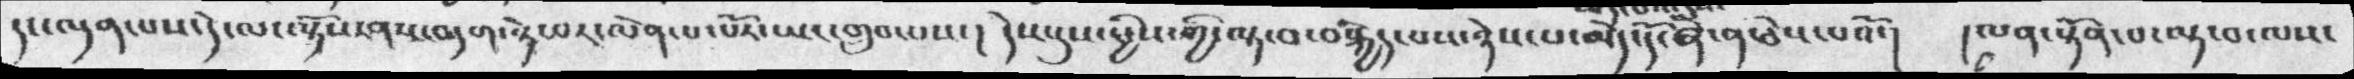དང་ལྡན་པས་དེ་ལ་ལྟོས་ནས་བདག་ཉེ་བར་ལེན་པ་པོར་ཡང་གྲུབ་པས་།  དེས་དུས་ཕྱིས་གྱི་ལྟ་བ་བསྐྱེད་པས་ཉེས་པ་མེད་དོ་ཞེ་ན་ཅེས་པའོ་།  །ལན་སྟོན་པ་ལྟ་བ་ལས་
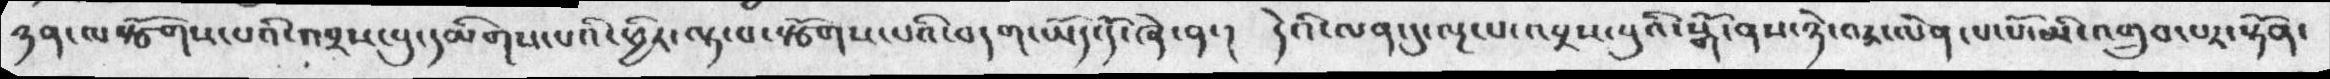ཉན་ལསྩོགས་པི་འབྲས་བུ་དམིགས་པའི་ཕྱིར་ལྟ་བ་སྩོགས་པའི་བདག་ཡོད་དོ་ཞེ་ན་། དེའི་ལན་དུ་ལྔ་པ་འབྲས་བུའི་སྒོ་ནས་ཉེ་བར་ལེན་པ་པོ་མི་འགྲུབ་པར་སྟོན་
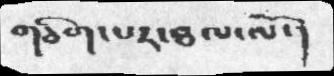གཅིག་པར་ཐལ་ལོ་།
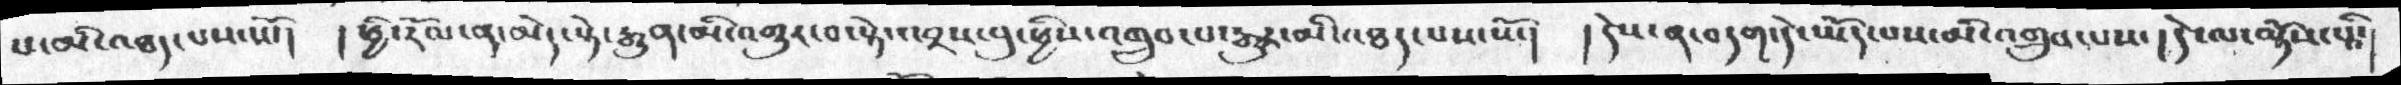པ་མི་འཐད་པས་སོ་།   །ཕྱི་རོལ་ན་མེད་སྟེ་རྒྱུན་མི་འགྱུར་བ་སྟེ་འབྲས་བུ་ཕྱིས་འགྲུབ་པ་རྒྱུར་མ་འཐད་པས་སོ་།  །དེས་ན་བདག་དེ་ཡོད་པས་མི་འགྲུབ་པས་།  དེ་ལ་ལྟོས་པའི་
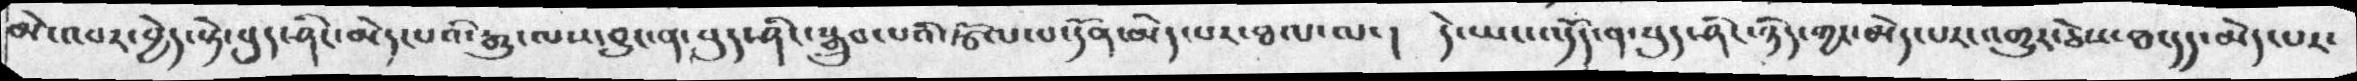མེ་འབར་བྱེད་སྟེ་བུད་ཤིང་མེད་པའི་རྒྱུ་ལས་བྱུང་ན་བུད་ཤིང་སྒྲུབ་པའི་རྩོལ་པ་དོན་མེད་པར་ཐལ་ལ་།  དེ་ཡང་འདོད་ན་བུད་ཤིང་ཉིད་ཀྱང་མེད་པར་འགྱུར་ཅེས་ཐ་དད་མེད་པར་
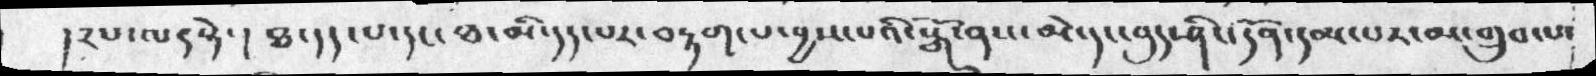།༢པ་ལདསྟེ་། ཐ་དད་པ་དང་ཐ་མི་དད་པར་བརྟག་པ་བྱས་པའི་སྒོ་ནས་མེ་དང་བུད་ཤིང་དོན་དམ་པར་མ་གྲུབ་པ་
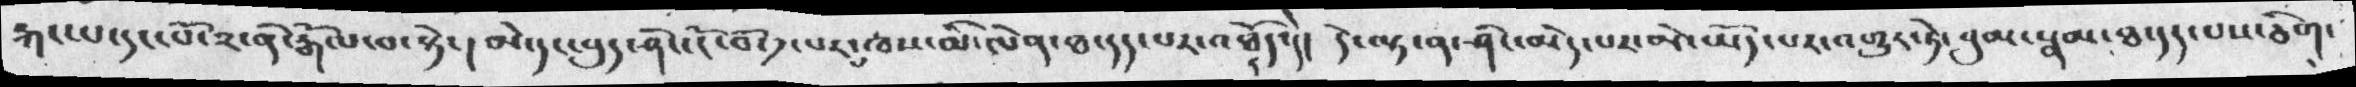རྐང་པ་དང་པོ་༢་ནི་རྒོལ་བ་སྟེ་།  མེ་དང་བུད་ཤིང་ངོ་བོ་༡་པར་པ་ཁས་མི་ལེན་ཐ་དད་པར་འདོད་དེ་།  དེ་ལྟ་ན་ཤིང་མེད་པར་མེ་ཡོད་པར་འགྱུར་ཏེ་བུམ་སྣམ་ཐ་དད་པས་ཅིག་
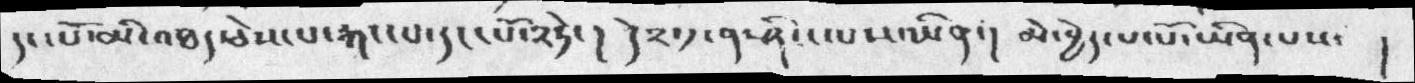དང་པོ་མི་འཐད་ཅེས་པ་རྐང་པ་དང་པོ་༢ཏེ་།  དེ༢་༡་ན་ཤིང་ལས་ཡིན་། མེ་བྱེད་པ་པོ་ཡིན་པས་ །
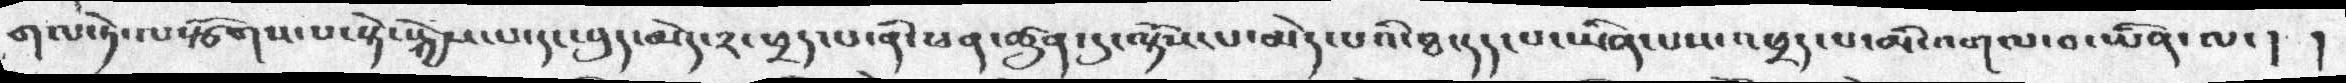གལ་ཏེ་ལསྩོགས་པ་སྟེ་སྐྱེས་པ་དང་བུད་མེད་༢་ཕྲད་པ་ནི་ཕན་ཚུན་དུ་ལྟོས་པ་མེད་པའི་ཐ་དད་པ་ཡིན་པས་འཕྲད་པ་མི་འགལ་བ་ཡིན་ལ་། །
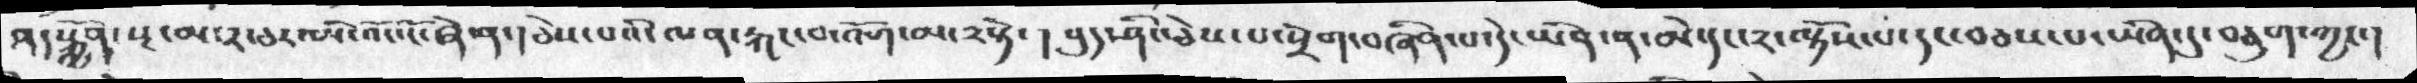ཤད་སྐྱོན་སྔ་མ་༢་ཅར་ཨེ་འོང་ངོ་ཞེ་ན་། ཅེས་པའི་ལན་རྐང་བ་འོག་མ་༢སྟེ་།   བུད་ཤིང་ཅེས་པ་སྲོག་བཞིན་པ་དེ་ཡིན་ན་མེ་དང་༢་ལྟོས་པ་དང་བཅས་པ་ཡིན་དུ་བཅུག་ཀྱང་།
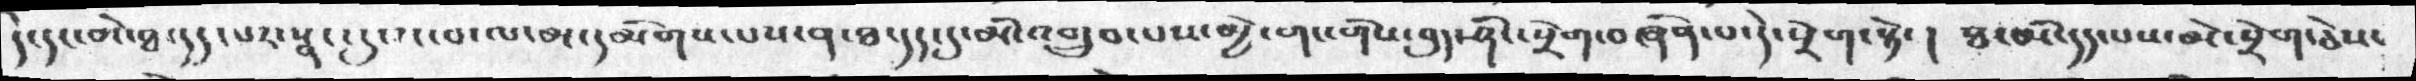དེ་དང་མེ་ཐ་དད་པར་སྣང་དུས་བ་ལ་མ་དམིགས་པས་ན་ཐ་དད་དུ་མི་འགྲུབ་པས་མྱེ་གང་གིས་བུད་ཤིང་སྲེག་བཞིན་པ་དེ་སྲེག་སྟེ་།  ཐ་མི་དད་པས་མེ་སྲེག་ཅེས་
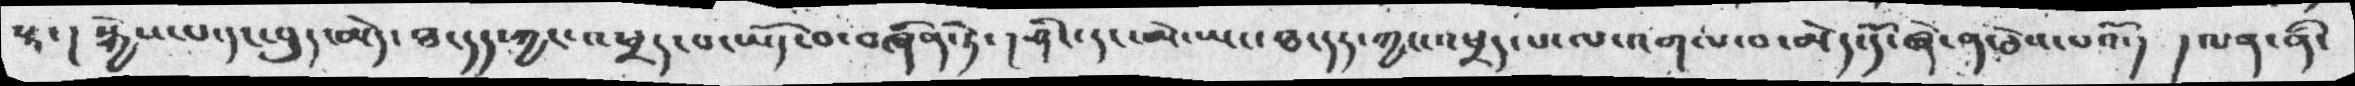པའ་།  སྐྱེས་པ་དང་བུད་མེད་ཐ་དད་ཀྱང་འཕྲད་པ་ཡོད་བ་བཞིན་ཏེ་།  ཤིང་དང་མེ་ཡང་ཐད་དད་ཀྱང་འཕྲད་པ་ལ་འགལ་བ་མེད་དོ་ཞེ་ན་ཅེས་པའོ་།  །ལན་ནི་
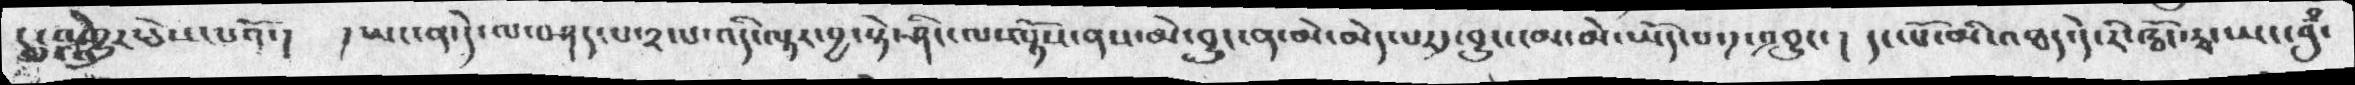དུ་འགྱུར་ཅེས་པའོ་།  ། ཡང་ན་དེ་ལ་བཤད་པ་༢་པ་འདི་ལྟར་བྱ་སྟེ་ཤིང་ལ་ལྟོས་ནས་མེ་བྱུང་ན་མེ་མེད་པར༡་བྱུང་ངམ་མེ་ཡོད་པ་༡་འབྱུང་།  དང་པོ་མི་འཐད་དེ་རི་ཝོང་རྭ་ཡང་བུཾ་
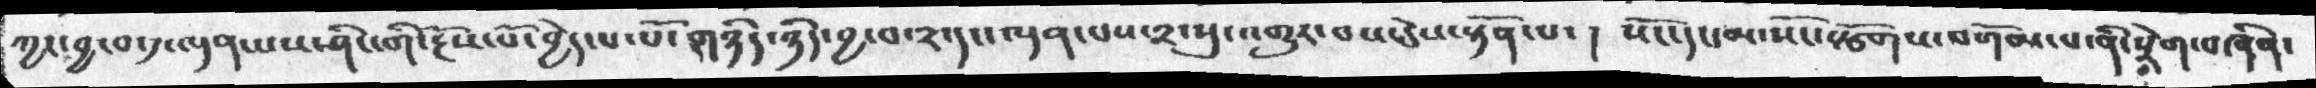ཀྱང་བྱ་བ་༡་ལྡན་པས་ཤིང་གི་རྔོས་པོ་བྱེད་པ་པོ་གཉིད་ཉིད་བྱ་བ་༢་དང་ལྡན་པས་༢་སུ་འགྱུར་བས་ཅེས་སྟོན་པ་།  སོང་དང་མ་སོང་སྩོགས་བགོམ་པ་ནི་སྲེག་བཞིན་
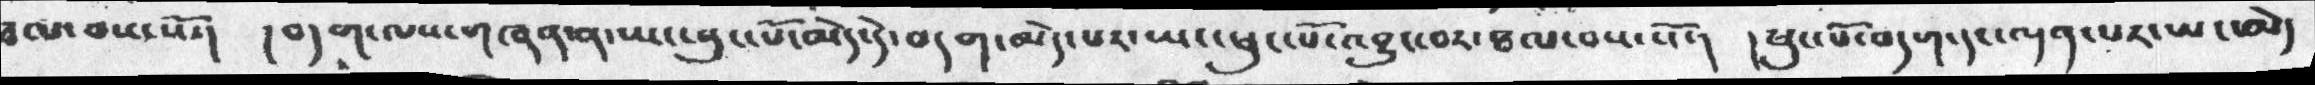ཐལ་བས་སོ་།  །བདག་ལས་གཞན་ན་ཡང་བུང་པོ་མེད་དེ་བདག་མེད་པར་ཡང་ཕུང་པོ་འབྱུང་བར་ཐལ་བས་སོ་།  །ཕུང་པོ་བདག་དང་ལྡན་པར་ཡང་མེད
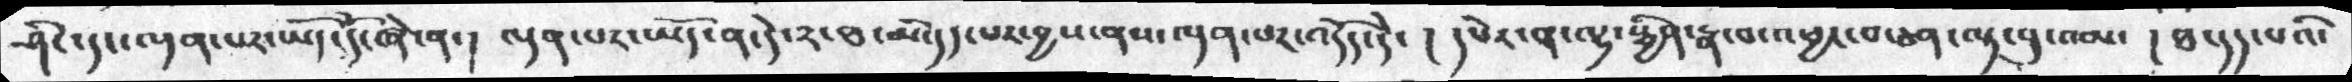ཤིང་དང་ལྡན་པར་ཡོད་དོ་ཞེ་ན་། ལྡན་པར་ཡོད་ན་དེ་༢་ཐ་མི་དད་པར་བྱས་ནས་ལྡན་པར་འདོད་དེ་། དཔེར་ན་ལྷ་སྦྱིན་རྣ་བ་འཕྱང་བ་ཅན་ལྟ་བུ་འམ་ །ཐ་དད་པའི་
